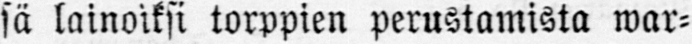sä lainoiksi torppien perustamista war-
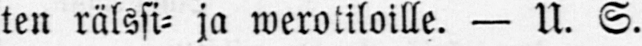ten rälssi- ja werotiloille. — U. S.
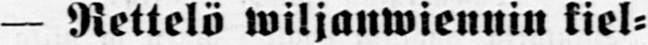— Rettelö wiljanwiennin kiel-
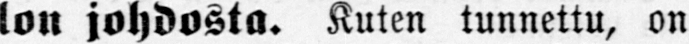lon johdosta. Kuten tunnettu, on
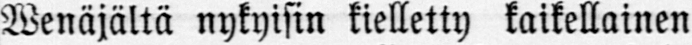Wenäjältä nykyisin kielletty kaikellainen
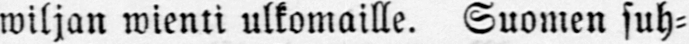wiljan wienti ulkomaille. Suomen suh-
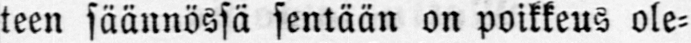teen säännössä sentään on poikkeus ole-
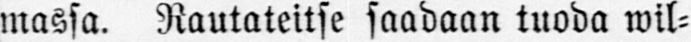massa. Rautateitse saadaan tuoda wil-
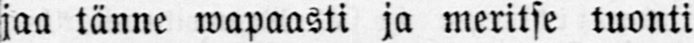jaa tänne wapaasti ja meritse luonti
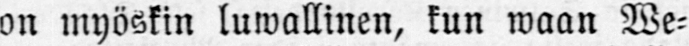on myöskin luwallinen, kun waan We-
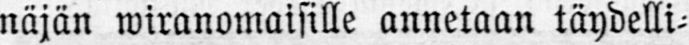näjän wiranomaisille annetaan täydelli-
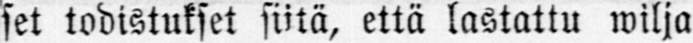set todistukset siitä, että lastattu wilja
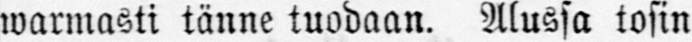warmasti tänne tuodaan. Alussa tosin
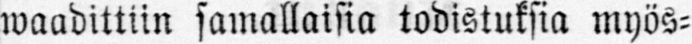waadittiin samallaisia todistuksia myös-
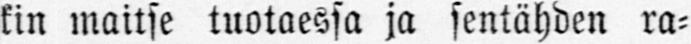kin maitse tuotaessa ja sentähden ra-
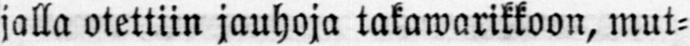jalla otettiin jauhoja takawarikkoon, mut-
